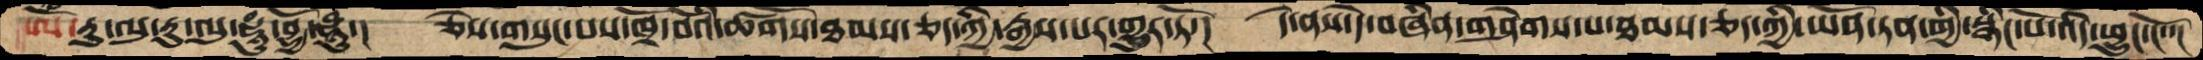ཨོཾ་རུ་ལུ་རུ་ལུ་ཧཱུཾ་བྷྱོ་ཧཱུཾ་།  ཅེས་གསུང་པས་ཁྲོ་བོའི་ཚོགས་ཐམས་ཅད་ཀྱི་རྒྱས་པར་གྱུར་ཏོ་།  དེ་ནས་དེ་བཞིན་གཤེགས་པ་ཐམས་ཅད་ཀྱི་ཡོན་ཏན་གྱི་སྙིང་པོ་འདི་ཕྱུང་ངོ་་།
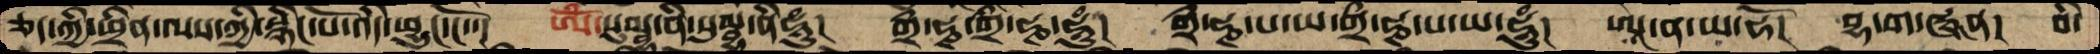ཅད་ཀྱི་ཕྲིན་ལས་ཀྱི་སྙིང་པོ་འདི་ཕྱུང་ངོ་་།  ཨོཾ་སུམྦྷ་ནི་སུམྦྷི་ཧཱུཾ།  གྲྀ་ཧྞ་གྲྀ་ཧྞ་ཧཱུཾ།   གྲྀ་ཧྞ་པ་ཡ་གྲྀ་ཧྞ་པ་ཡ་ཧཱུཾ། ཨཱ་ན་ཡ་ཧོ་།  བྷ་ག་ཝཱན།  བི་
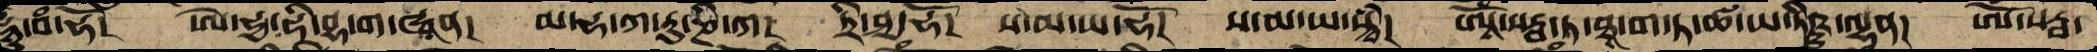ཧཱུཾ་བཾ་ཧོ།  ཨེ་ཧྱ་ཧི་བྷ་ག་ཝཱན།  མ་ཧ་ཀ་རུ་ཎི་ཀ།  ཏྲི་ཤྱ་ཧོ།  ས་མ་ཡ་ཧོ།  ས་མ་ཡ་སྟྭཾ།  ཨཱོཾ་སརྦ་ཏ་ཐཱ་ག་ཏ་ཚ་ཡ་ཏིཥྛ་ལྷན།  ཨོཾ་སརྦ་
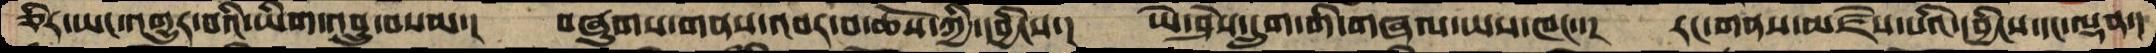ཅིར་ཡང་འགྱུར་བའི་ཡིག་འབྲུ་བསམ་།  བཞུགས་གནས་འབར་བ་ཆོས་ཀྱི་དབྱིངས་།  ཡེ་ཤེས་དྲུག་གི་གཞལ་ཡས་ཁང་་།  རང་གནས་མཛེས་པའི་དབྱིངས་དང་ལྡན་།
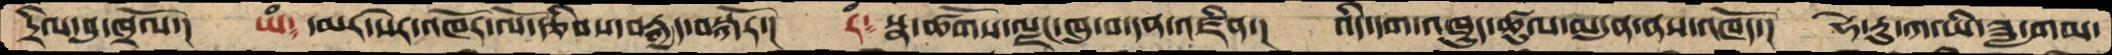དྲིལ་བུ་ཁྲོལ་།  ཡཾ༴  དམར་སེར་འཁོར་ལོ་རྩིབས་བརྒྱད་བསྐོར་།  རཾ༴   སྣ་ཚོགས་ལྗང་ཁུ་བ་དན་འཛིན་།  འདི་དག་འཁྱུད་ཚུལ་མདུན་ནས་འཁོད་།  ཧེ་རུ་ཀ་ཡི་ཟླ་གམ་
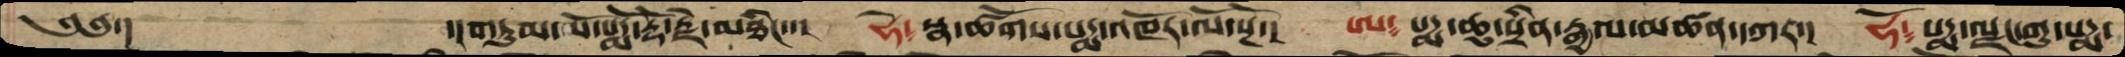༄༅་།     ་།གཏུམ་པོ་པདྨོ་རྡོ་རྗེ་མཐིང་་།  ཧེ༴ སྣ་ཚོགས་པདྨ་འཁོར་ལོ་སྔོ་།  ཨ༴ པདྨ་ཆུ་སྲིན་རྒྱལ་མཚན་དཀར་།  ཧོ༴  པདྨ་ལྗང་གུ་པདྨ་
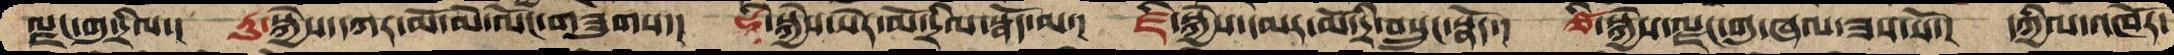ལྗང་གུ་དྲིལ་།  རུ་སྐྱེས་དཀར་མོ་མེ་ལོང་གཟུགས་།  ཧྲི་སྐྱེས་སེར་མོ་དྲིལ་སྣོད་མ་།  ཛི་སྐྱེས་དམར་མོ་དྲི་བསྲུང་སྣོད་།  ཙི་སྐྱེས་ལྗང་གུ་ཞལ་ཟས་སོ་།  དཀྱིལ་འཁོར་
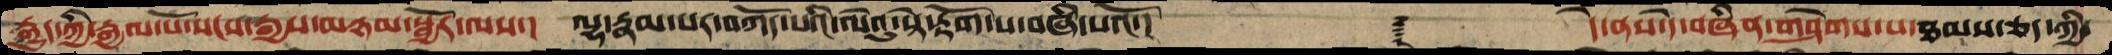རྒྱུད་ཀྱི་རྒྱལ་པོ་སངས་རྒྱས་མཉམ་སྦྱོར་ལས་།  ལྷ་རྣམ་པར་བཀོད་པའི་ལེའུ་སྟེ་རྟོག་པ་བཞི་པའོ་།   ࿑       དེ་ནས་དེ་བཞིན་གཤེགས་པ་ཐམས་ཅད་ཀྱི་
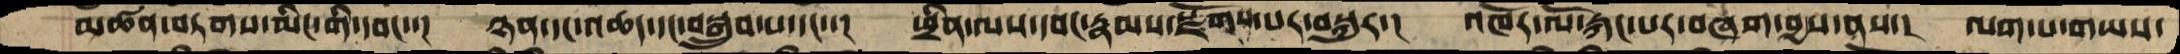མཚན་བཏགས་མིང་གི་དབང་་།  ཉན་དང་འཆད་དང་བསྒྲུབ་པ་དང་་།  ཕྲིན་ལས་དབང་རྣམས་སྫོགས་པར་བསྐུར་།  འཁོར་ལོ་རྐང་པར་བཞག་བྱས་ནས་།  ལག་པ་གཡས་
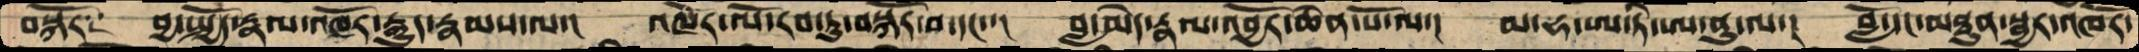བསྐོར༑  བྱ་སྤྱོད་རྣལ་འབྱོར་རྒྱུད་རྣམས་ལ་།  འཁོར་ལོ་རབ་ཏུ་བསྐོར་བ་དང་་།  བླ་མེད་རྣལ་འབྱོར་ཆེན་པོ་ལ་།  མ་ཧ་ཨ་ཏི་ཨ་ནུ་ལ་།  བློ་དང་མཐུན་སྦྱར་འཁོར་
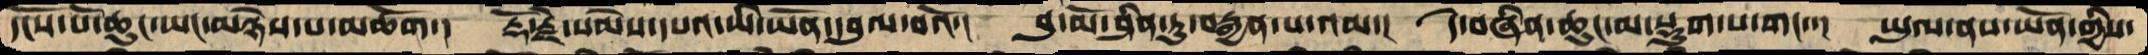དངོས་པོ་ཆུང་ཡང་མཉེས་པ་མཆོག་།  རྡོ་རྗེ་སེམས་དཔའ་ཡི་ཡོན་དབུལ་བའོ་།  བུ་མོ་ཤིན་ཏུ་བརྒྱན་པ་འམ་།  དེ་བཞིན་ཆུང་མ་སྡུག་པ་གང་་།  ཡུལ་ནས་ཡོན་གྱིས་
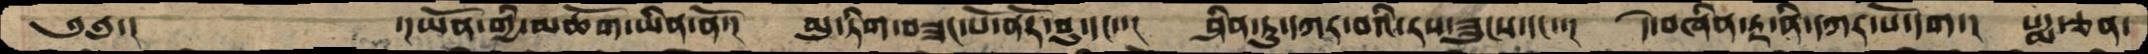༄༅་།    ་།ཡོན་གྱི་མཆོག་ཡིན་ནོ་།  མུ་ཏིག་བཟང་པོ་ནོར་བུ་དང་་།  ཤིན་ཏུ་དཀར་བའི་རས་ཟུངས་དང་་།  དེ་བཞིན་རྟ་ནི་དཀར་པོ་དག་།  པདྨ་ཅན་
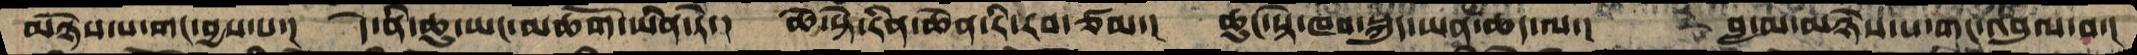མཉེས་པ་གང་བྱས་པ་།  དེ་ནི་ཆུ་ཡང་མཆོག་ཡིན་ཏེ་།  ཆེ་སྟེ་རིན་ཆེན་རི་རབ་ཙམ་།  ཆུང་སྟེ་ཁབ་སྐུད་ཡན་ཆད་ལ་།  བླ་མ་མཉེས་པ་གང་འབུལ་བ་།
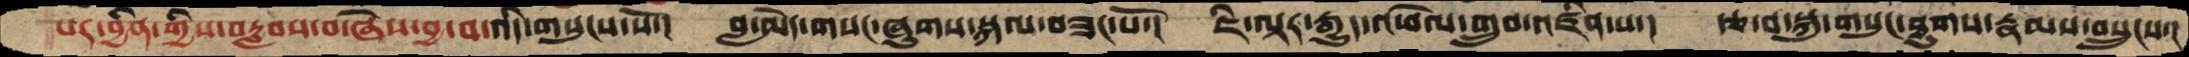པར་བྱིན་གྱིས་བརླབས་བ་ཞེས་བྱ་བ་འདི་གསུངས་སོ་།  བླ་མེད་གསང་ཞུགས་སྐལ་བཟང་པོ་།  ཇི་ལྟར་རྒྱུད་འཕེལ་གྲུབ་འཛིན་པ་།  རྩ་བ་སྐུ་གསུང་ཐུགས་རྣམས་བསྲུངས་།
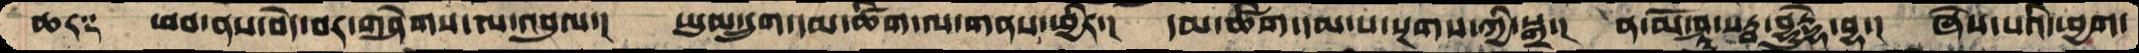ཆར༑  ཕབ་ནས་བདེ་བར་གཤེགས་ལ་འབུལ་།  ཡུམ་དྲུག་དམ་ཚིག་ལ་གནས་ཕྱིར་།  དམ་ཚིག་དམ་པ་སྔགས་ཀྱི་སྒྲ་།  ན་མོ་ཤཱ་སརྦ་བྷུདྡྷེ་བྷ་།  ཞེས་པའི་ཕྱག་
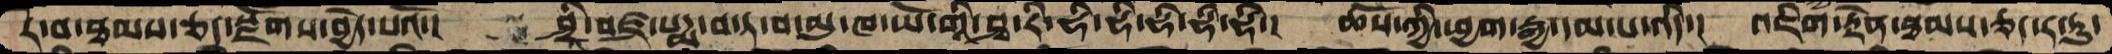རེ་བ་ཐམས་ཅད་སྫོགས་བྱེད་པའོ་།  ཤྲཱི་བཛྲ་པདྨ་བ་ཏ་མུ་ཁ་ཡོ་གཱི་ཤྭ་རི་ཧི་ཧི་ཧི་ཧི་ཧི་།  ཆོས་ཀྱི་ཕྱག་རྒྱ་དམ་པ་འདིིིིི་།  འཇིག་རྟེན་ཐམས་ཅད་ར་རུ་
